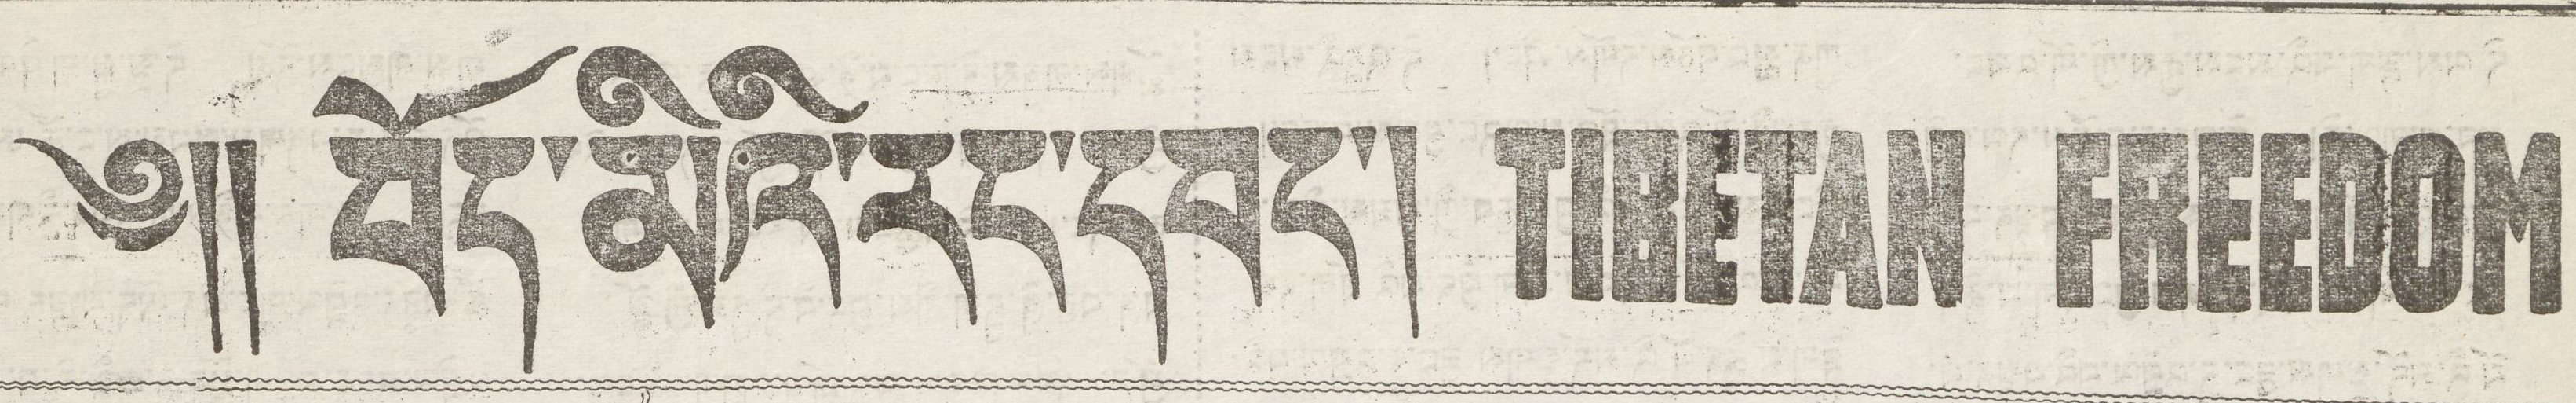༄།། བོད་མིའི་རང་དབང་། TIBETAN FREEDOM
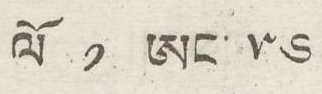ལོ ༡ ཨང་ ༥༦
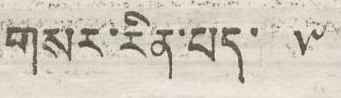གསར་རིན་པད་ ༥
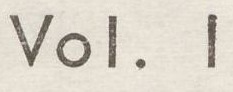Vol.   l
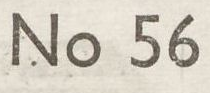No 56
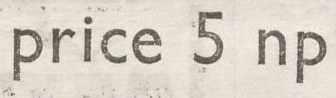price 5 np
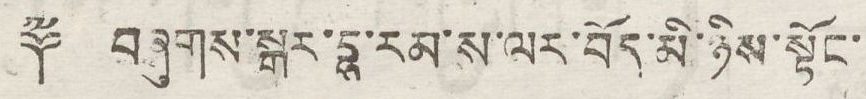༈  བཞུགས་སྐར་དྷ་རམ་ས་ལར་བོད་མི་ཉིས་སྟོང་
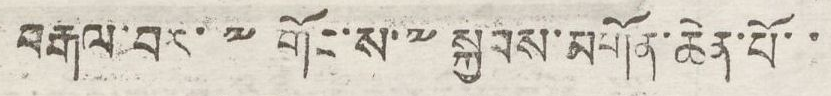བརྒལ་བར་༸གོང་ས་༸སྐྱབས་མགོན་ཆེན་པོ་་
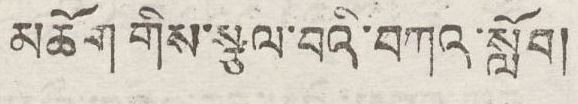མཆོག གིས་སྩལ་བའི་བཀའ་སློབ།
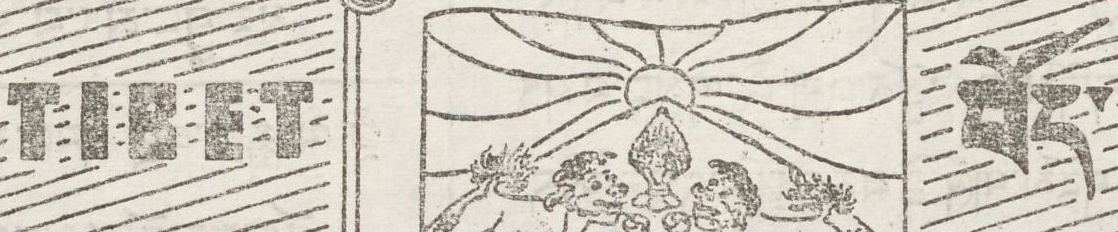TIBET      བོད་
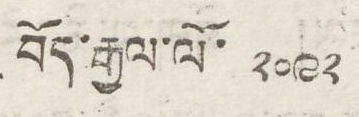བོད་རྒྱལ་ལོ་ ༢༠༩༢
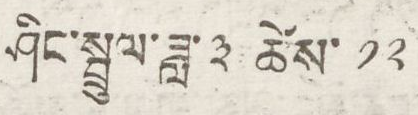ཤིང་སྦྲུལ་ཟླ་༣ ཚེས་ ༡༢
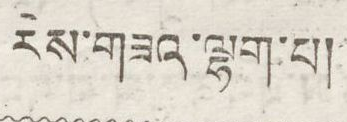རེས་གཟའ་ལྷག་པ།
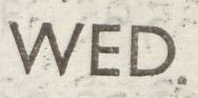WED
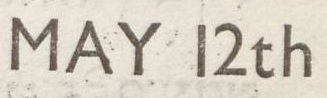MAY  12th
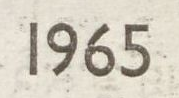1965
